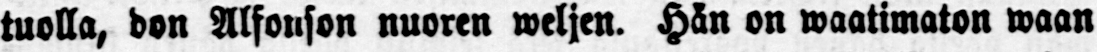tuolla, don Alfonson nuoren weljen. Hän on waatimaton waan
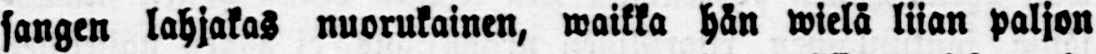sangen lahjakas nuorukainen, waikka hän wielä liian paljon
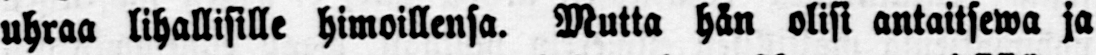uhraa lihallisille himoillensa. Mutta hän olisi antaitsewa ja
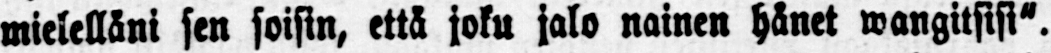mielelläni sen soisin, että joku jalo nainen hänet wangitsisi."
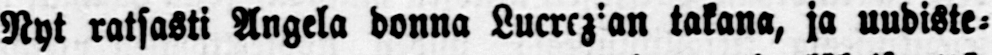Nyt ratsasti Angela donna Lucrez’an takana, ja uudiste-
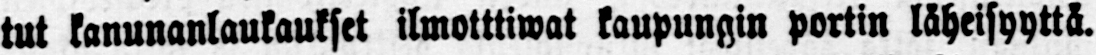tut kanunanlaukaukset ilmoittiwat kaupungin portin läheisyyttä.
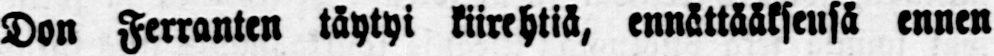Don Ferranten täytyi kiirehtiä, ennättääksensä ennen
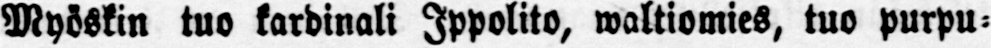Myöskin tuo kardinali Ippolito, waltiomies, tuo purpu-
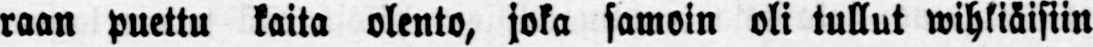raan puettu kaita olento, joka samoin oli tullut wihkiäisiin
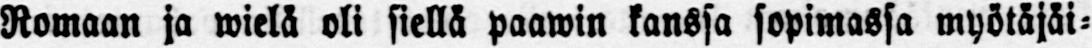Romaan ja wielä oli siellä paawin kanssa sopimassa myötäjäi-
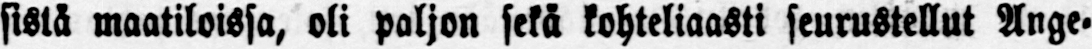sistä maatiloissa, oli paljon sekä kohteliaasti seurustellut Ange-
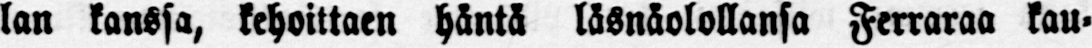lan kanssa, kehoittaen häntä läsnäolollansa Ferraraa kau-
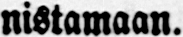nistamaan.
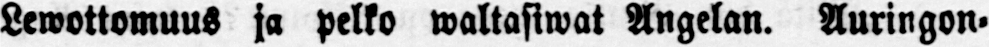Lewottomuus ja pelko waltasiwat Angelan. Auringon-
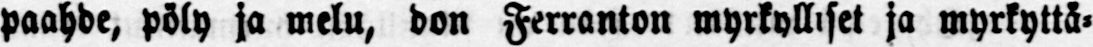paahde, pöly ja melu, don Ferranton myrkylliset ja myrkyttä-
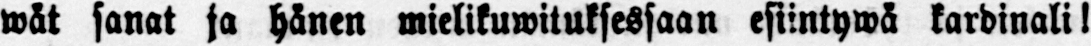wät sanat ja hänen mielikuwituksessaan esiintywä kardinali!
